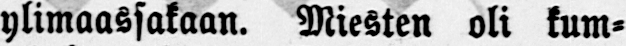ylimaassakaan. Miesten oli kum-
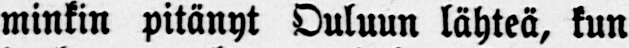minkin pitänyt Ouluun lähteä, kun
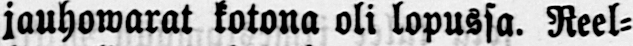jauhowarat kotona oli lopussa. Reel-
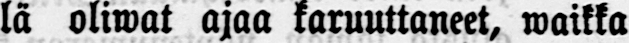lä oliwat ajaa karuuttaneet, waikka
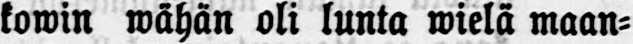kowin wähän oli lunta wielä maan-
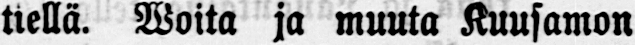tiellä. Woita ja muuta Kuusamon
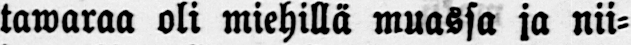tawaraa oli miehillä muassa ja nii-
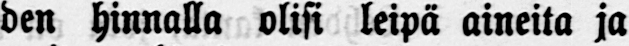den hinnalla olisi leipä aineita ja
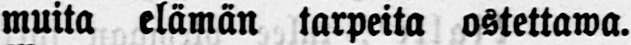muita elämän tarpeita ostettawa.
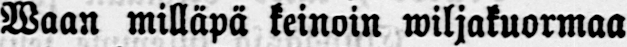Waan milläpä keinoin wiljakuormaa
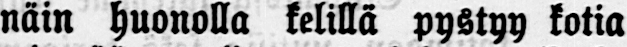näin huonolla kelillä pystyy kotia
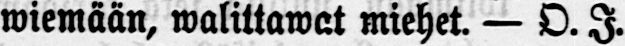wiemään, walittawat miehet. — O. I.
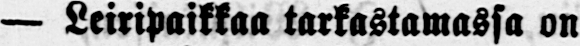— Leiripaikkaa tarkastamassa on
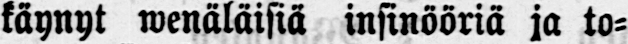käynyt wenäläisiä insinööriä ja to-
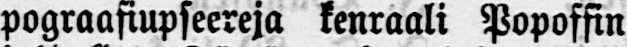pograasiupseereja kenraali Popoffin
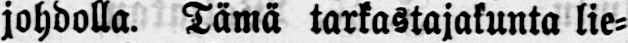johdolla. Tämä tarkastajakunta lie-
